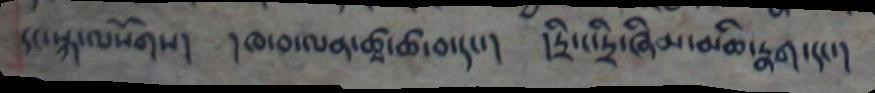དང་སྐ་ལསོགས། །ཁ་བ་ལན་ཚྭ་ཚ་བ་དང་། །ཏྲི་ང་ཏྲི་ཞིམ་མཆི་རྣག་དང་།
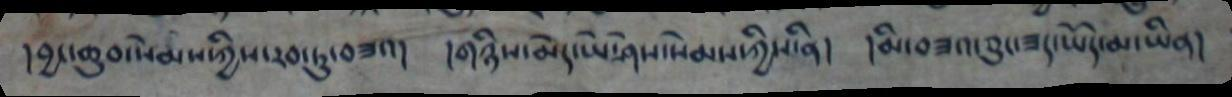།བྱང་ཆུབ་སེམས་ཀྱིས་རབ་ཏུ་བཟའ། །གཉིས་མེད་ཡེ་ཤེས་སེམས་ཀྱིས་ནི། །མི་བཟའ་ཅུང་ཟད་ཡོད་མ་ཡིན།
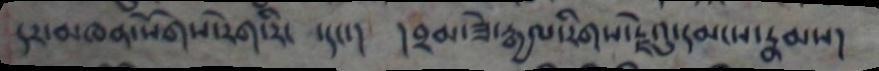དར་མཁན་སོགས་རེག་རིང་དང་། །བྲམ་ཟེ་རྒྱལ་རིགས་རྗེའུ་དམངས་རྣམས།
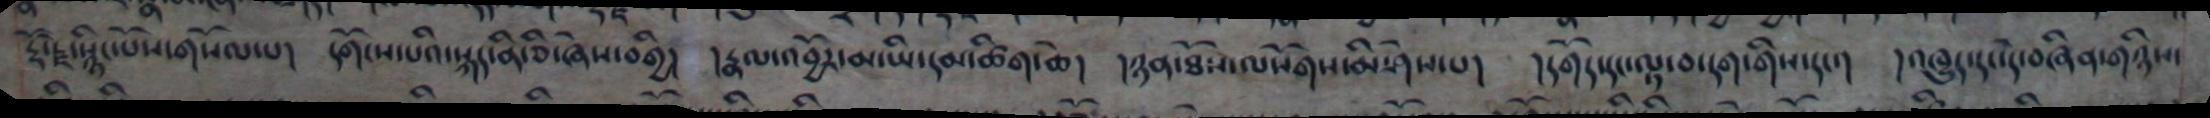རྡོ་རྗེ་སྙིང་པོས་གསོལ་པ། དགོངས་པའི་སྐད་ནི་ཅི་ཞིག་བགྱི། །རྣལ་འབྱོར་མ་ཡི་དམ་ཚིག་ཆེ། །ཉན་ཐོས་ལསོགས་མི་ཤེས་པ། །དགོད་དང་ལྟ་བ་དག་གིས་དང་། །འཁྱུད་དང་དེ་བཞིན་གཉིས་
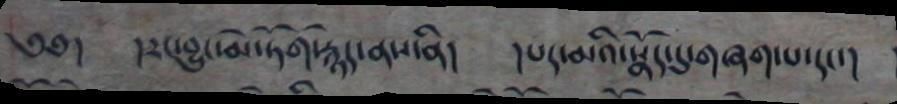༄༅། །རང་བྱུང་མེ་ཏོག་རྙེད་ནས་ནི། །པད་མའི་སྣོད་དུ་གཞག་པ་དང་།
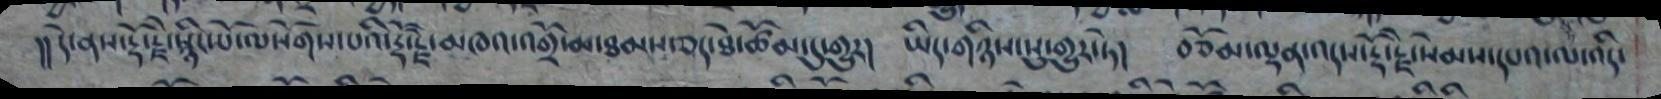།།དེ་ནས་རྡོ་རྗེ་སྙིང་པོ་ལསོགས་པའི་རྡོ་རྗེ་མཁའ་འགྲོ་མ་ཐམས་ཅད་ཐེ་ཚོམ་དུ་གྱུར། ཡིད་གཉིས་སུ་གྱུར་ཏེ། བཅོམ་ལྡན་འདས་རྡོ་རྗེ་སེམས་དཔའ་ལ་འདི་
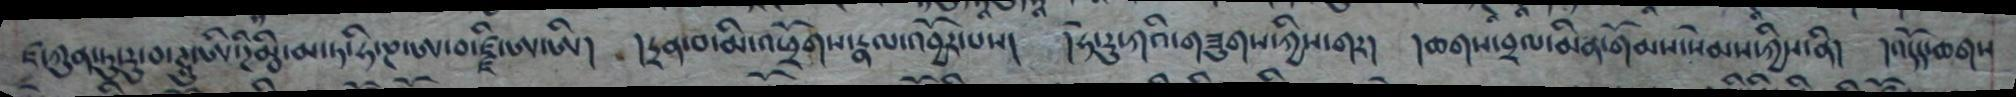ཛ་ཀུན་ཏུ་རུ་བ་ཊཱུ་ཨི་ཌིམྦི་མ་ཏ་ཧི་ཎ་ཨ་བ་ཛྫི་ཨ་ཨི། །དྲན་བ་མི་འཕྲོགས་རྣལ་འབྱོར་པས། །ཧེ་རུ་ཀའི་གཟུགས་ཀྱིས་གར། །ཆགས་བྲལ་མིན་གོམས་སེམས་ཀྱིས་ནི། །འདོད་ཆགས
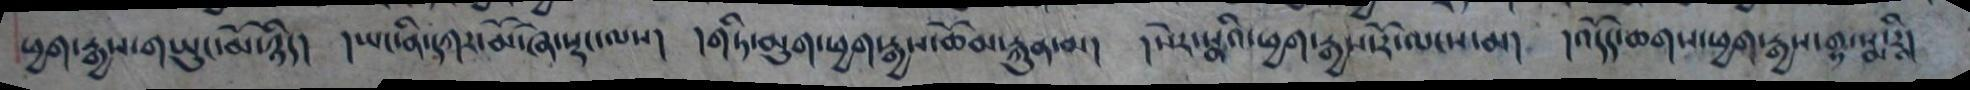ཕྱག་རྒྱས་གཡུང་མོ་ཉིད། །ཡང་ནི་དཀར་མོ་ཞེ་སྡང་ལས། །གཏི་མུག་ཕྱག་རྒྱས་ཆོམ་རྐུན་མ། །སེར་སྣའི་ཕྱག་རྒྱས་རོ་ལངས་མ། །འདོད་ཆགས་ཕྱག་རྒྱས་གྷ་སྨ་རཱི།
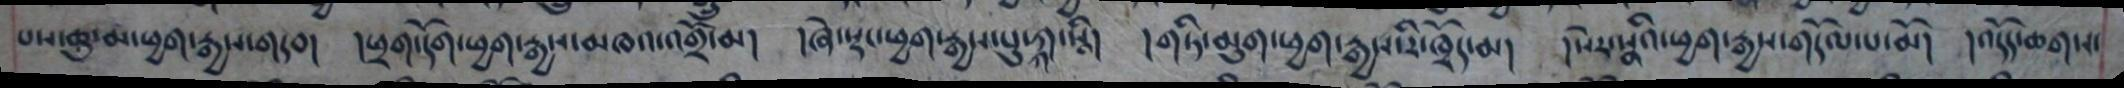པས་ཆུ་མ་ཕྱག་རྒྱས་གདབ། །ཕྲག་དོག་ཕྱག་རྒྱས་མཁའ་འགྲོ་མ། །ཞེ་སྡང་ཕྱག་རྒྱས་པུ་ཀྐ་སཱི། །གཏི་མུག་ཕྱག་རྒྱས་རི་ཁྲོད་མ། །སེར་སྣའི་ཕྱག་རྒྱས་གདོལ་པ་མོ། །འདོད་ཆགས་
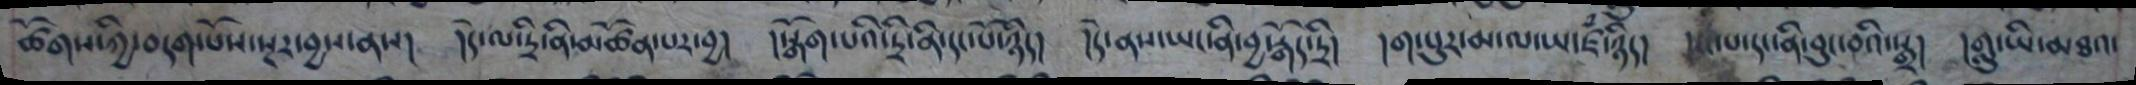ཚོགས་ཀྱི་བདག་པོས་སྔར་བྱས་ནས། །དེ་ལ་དྲི་ནི་མཚོན་པར་བྱ། །སྒོག་པའི་དྲི་ནི་དང་པོ་ཉིད། །དེ་ནས་ཡང་ནི་བྱ་རྒོད་དྲི། །ག་པུར་མ་ལ་ཡ་ཛཾ་ཉིད། །ངང་པ་དང་ནི་བུང་བའི་སྒྲ། །གླུ་ཡི་མཐའ་
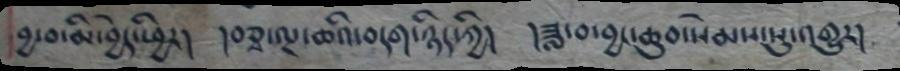བྱ་བ་མི་བྱེད་ཕྱིར། །བཅྭ་ལྔ་ཆའི་བདག་ཉིད་ཀྱི། །ཟླ་བ་བྱང་ཆུབ་སེམས་སུ་འགྱུར།
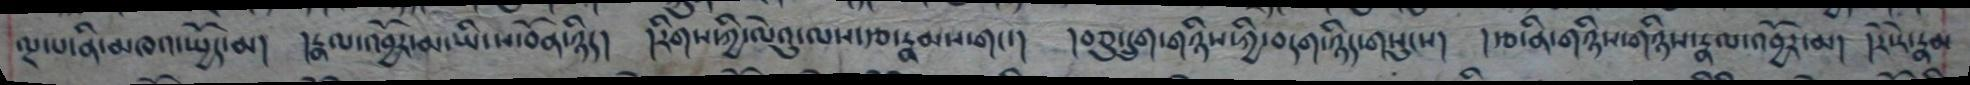ལྔ་པ་ནི་མཁའ་སྤྱོད་མ། །རྣལ་འབྱོར་མ་ཡི་ས་བོན་ཉིད། །རིགས་ཀྱི་ལེའུ་ལས་རྩ་རྣམས་གང་། །བཅུ་དྲུག་གཉིས་ཀྱི་བདག་ཉིད་གསུངས། །རྩ་ནི་གཉིས་གཉིས་རྣལ་འབྱོར་མ། །རེ་རེ་རྣམ
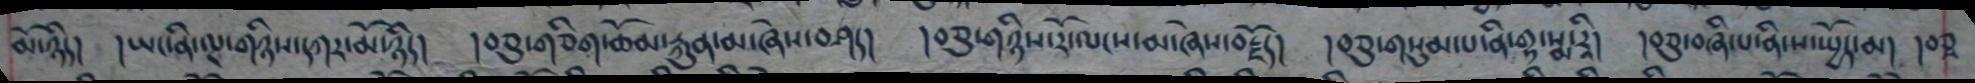མོ་ཉིད། །ཡང་ནི་ལྔ་གཉིས་དཀར་མོ་ཉིད། །བཅུ་གཅིག་ཆོམ་རྐུན་མ་ཞེས་བཤད། །བཅུ་གཉིས་རོ་ལངས་མ་ཞེས་བརྗོད། །བཅུ་གསུམ་པ་ནི་གྷ་སྨ་རཱི། །བཅུ་བཞི་པ་ནི་ས་སྤྱོད་མ། །བཅྭ
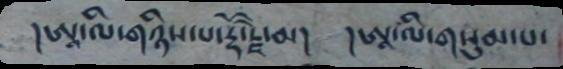།ཨཱ་ལི་གཉིས་པ་རྡོ་རྗེ་མ། །ཨཱ་ལི་གསུམ་པ་
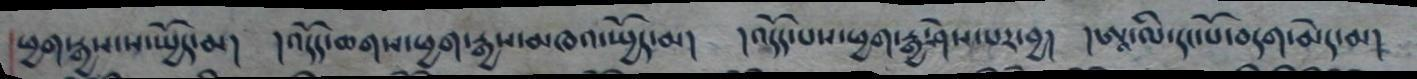ཕྱག་རྒྱས་སྤྱོད་མ། །འདོད་ཆགས་ཕྱག་རྒྱས་མཁའ་སྤྱོད་མ། །འདོད་པས་ཕྱག་རྒྱ་ཤེས་པར་བྱ། །ཨཱ་ལི་དང་པོ་བདག་མེད་མ།
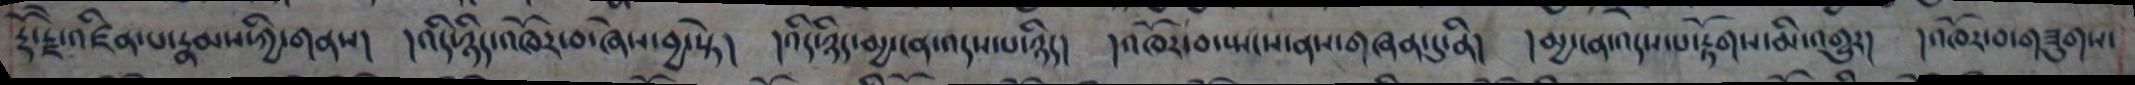རྡོ་རྗེ་འཛིན་པ་རྣམས་ཀྱི་གནས། །འདི་ཉིད་འཁོར་བ་ཞེས་བྱ་སྟེ། །འདི་ཉིད་མྱ་ངན་འདས་པ་ཉིད། །འཁོར་བ་སྤངས་ནས་གཞན་དུ་ནི། །མྱ་ངན་འདས་པ་རྟོགས་མི་འགྱུར། །འཁོར་བ་གཟུགས་
